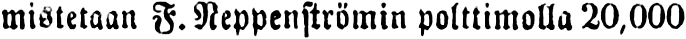mistelaan F. Neppenströmin polttimolla 20,000
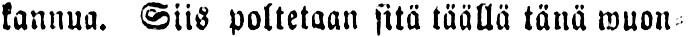kannua. Siis poltetaan sitä täällä tänä wuon -
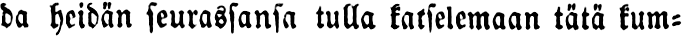da heidän seurassansa tulla katselemaan tätä kum-
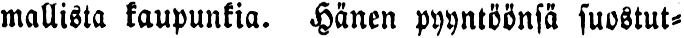mallista kaupunkia. Hänen pyyntöönsä suostut-
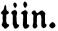tiin.
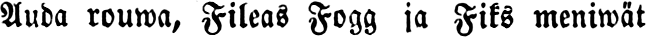Auda rouwa, Fileas Fogg ja Fiks meniwät
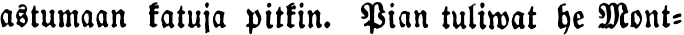astumaan katuja pitkin. Pian tuliwat he Mont-
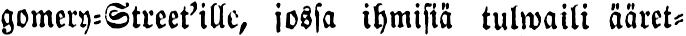gomery-Street'ille, jossa ihmisiä tulwaili ääret-
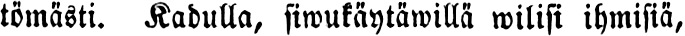tömästi. Kadulla, siwukäytäwillä wilisi ihmisiä,
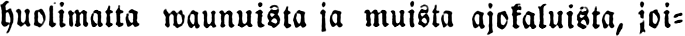huolimatta waunuista ja muista ajokaluista, joi-
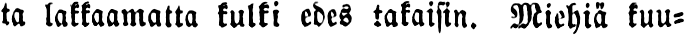ta lakkaamatta kulki edes takaisin. Miehiä kuu-
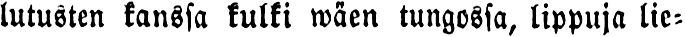lutusten kanssa kulki mäen tungossa, lippuja lie-
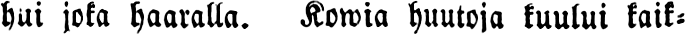hui joka haaralla. Kowia huutoja kuului kaik-
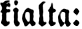kialta:
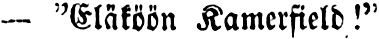— "Eläköön Kamerfield!"
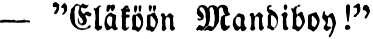— "Eläköön Mandiboy!"
